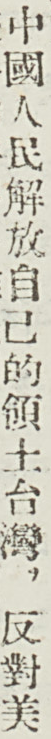中國人民解放自己的領土台灣，反對美
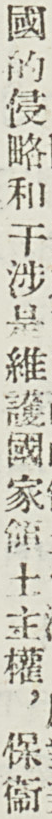國的侵略和干涉是維護國家領土主權，保衛
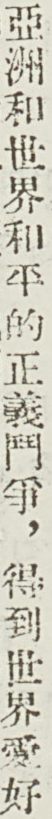亞洲和世界和平的正義鬥爭，得到世界愛好
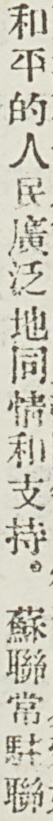和平的人民廣泛地同情和支持。蘇聯常駐聯
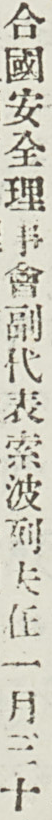合國安全理事會副代表索波列夫在一月三十
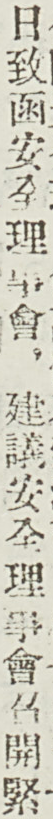日致函安全理事會，建議安全理事會召開緊
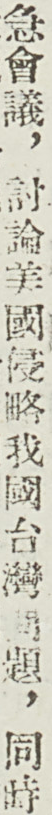急會議，討論美國侵略我國台灣問題，同時
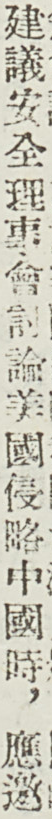建議安全理事會討論美國侵略中國時，應邀
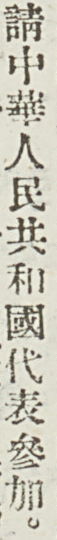請中華人民共和國代表參加。
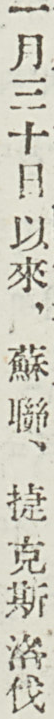一月三十日以來，蘇聯、捷克斯洛伐
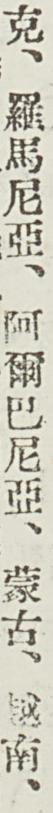克、羅馬尼亞、阿爾巴尼亞、蒙古、越南、
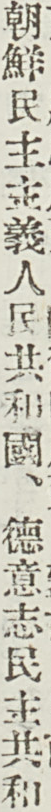朝鮮民主主義人民共和國、德意志民主共和
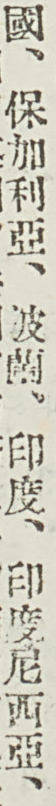國、保加利亞、波蘭、印度、印度尼西亞、
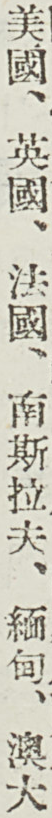美國、英國、法國、南斯拉夫、緬甸、澳大
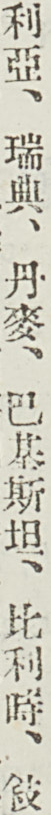利亞、瑞典、丹麥、巴基斯坦、比利時、敍
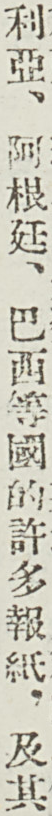利亞、阿根廷、巴西等國的許多報紙，及其
